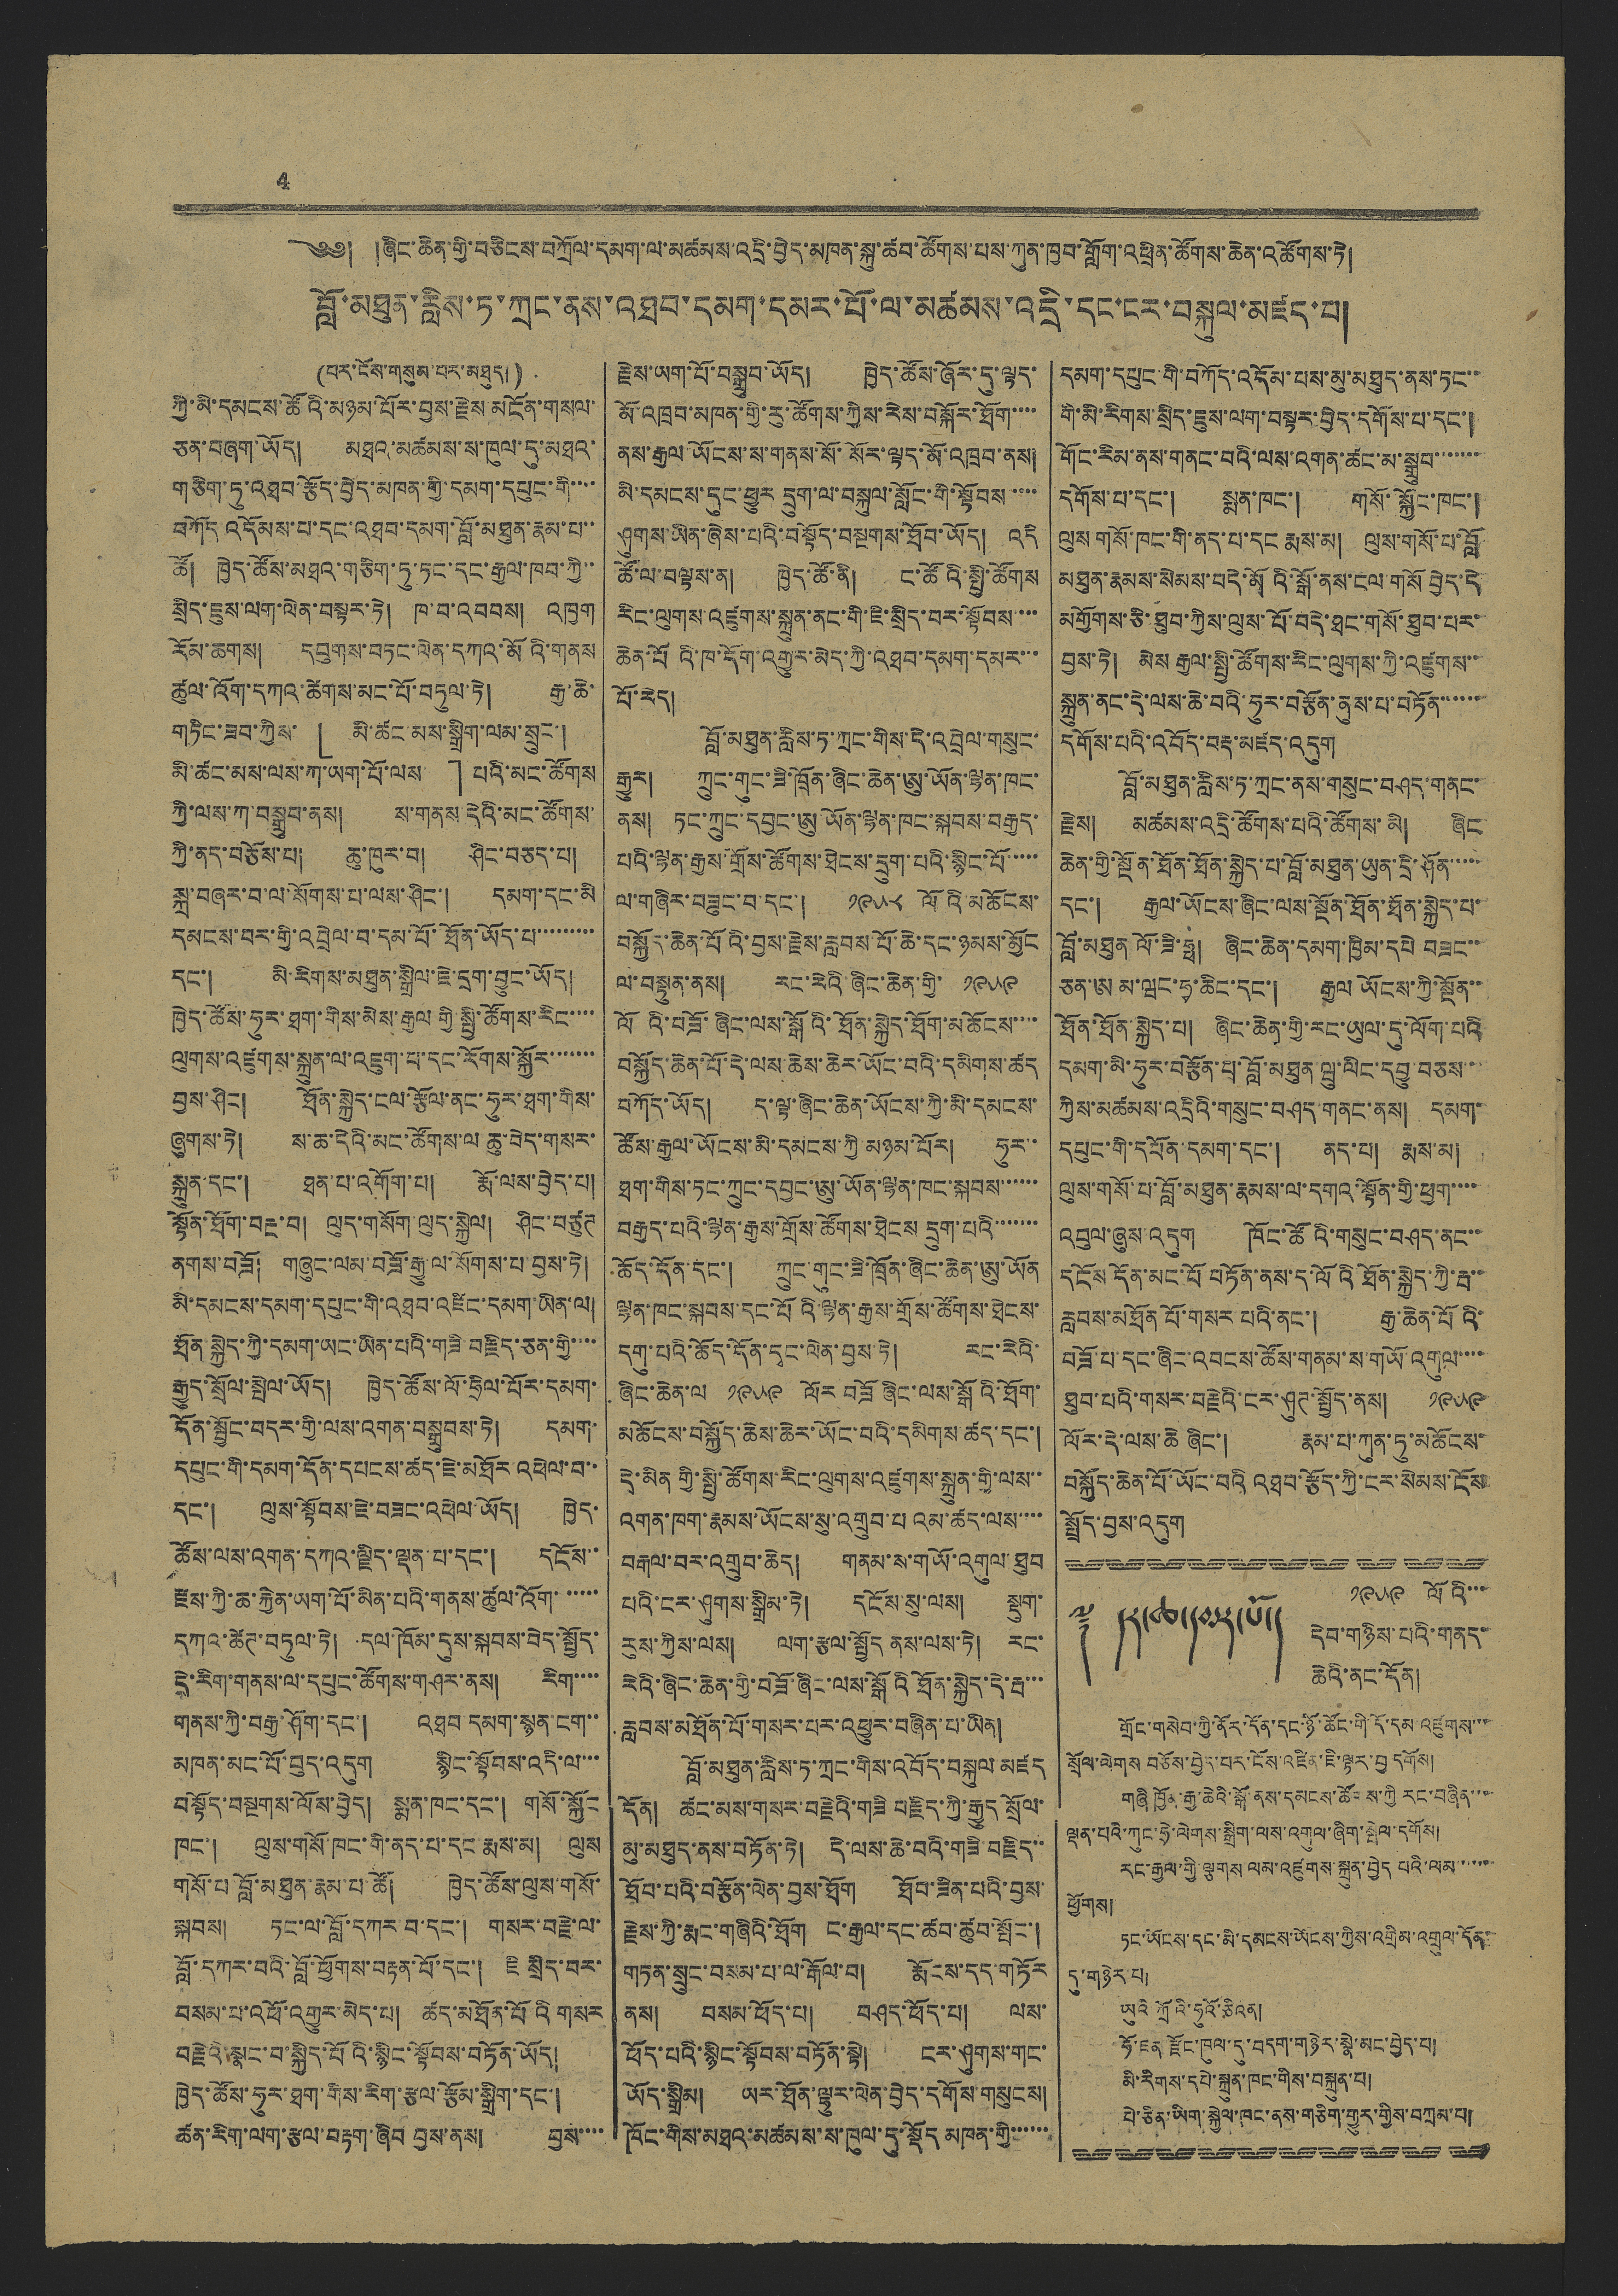4
༄༅། །ཞིང་ཆེན་གྱི་བཅིངས་བཀྲོལ་དམག་ལ་མཚམས་འདྲི་བྱེད་མཁན་སྐུ་ཚབ་ཚོགས་པས་ཀུན་ཁྱབ་གློག་འཕྲིན་ཚོགས་ཆེན་འཚོགས་ཏེ།
བློ་མཐུན་རླིས་ཏ་ཀྲང་ནས་འཐབ་དམག་དམར་པོ་ལ་མཚམས་འདྲི་དང་ངར་བསྐུལ་མཛད་པ།
(པར་ངོས་གསུམ་པར་མཐུད།)
ཀྱི་མི་དམངས་ཚོའི་མཉམ་པོར་བྱས་རྗེས མངོན་གསལ་
ཅན་བཞག་ཡོད། མཐའ་མཚམས་ས་ཁུལ་དུ་མཐའ་
གཅིག་ཏུ་འཐབ་རྩོད་བྱེད་མཁན་གྱི་དམག་དཔུང་གི་་་་
བཀོད འདོམས་པ་དང་འཐབ་དམག་བློ་མཐུན་རྣམ་པ་་
ཚོ། ཁྱེད་ཚོས་མཐའ་གཅིག་ཏུ་ཏང་དང་རྒྱལ་ཁབ་ཀྱི་་
སྲིད་ཇུས་ལག་ལེན་བསྟར་ཏེ། ཁ་བ་འབབས། འཁྱག
རོམ་ཆགས། དབུགས་བཏང་ལེན་དཀའ་མོའི་གནས
ཚུལ་འོག་དཀའ་ཚེགས་མང་པོ་བཏུལ་ཏེ། རྒྱ་ཆེ་
གཏིང་ཟབ་ཀྱིས་ 「 མི་ཚང་མས་སྒྲིག་ལམ་སྲུང་།
མི་ཚང་མས་ལས་ཀ་ཡག་པོ་ལས 」པའི་མང་ཚོགས
ཀྱི་ལས་ཀ་བསྒྲུབ་ནས། ས་གནས་དེའི་མང་ཚོགས་
ཀྱི་ནད་བཅོས་པ། ཆུ་ཁུར་བ། ཤིང་བཅད་པ།
སྐྲ་བཞར་བ་ལ་སོགས་པ་ལས་ཤིང་། དམག་དང་མི
དམངས་བར་གྱི་འབྲེལ་བ་དམ་པོ་ཐོན་ཡོད་པ་་་་་་་་་
དང་། མི་རིགས་མཐུན་སྒྲིལ་ཇེ་དྲག་བྱུང་ཡོད།
ཁྱེད་ཚོས་ཧུར་ཐག་གིས་མེས་རྒྱལ གྱི་སྤྱི་ཚོགས་རིང་་་་
ལུགས་འཛུགས་སྐྲུན་ལ་འཇུག་པ་དང་རོགས་སྐྱོར་་་་་་་
བྱས་ཤིང། ཐོན་སྐྱེད་ངལ་རྩོལ་ནང་ཧུར་ཐག་གིས་
ཞུགས་ཏེ། ས་ཆ་དེའི་མང་ཚོགས་ལ ཆུ་བེད་གསར་
སྐྲུན་དང་། ཐན་པ་འགོག་པ། རྨོ་ལས་བྱེད་པ།
སྟོན་ཐོག་བརྔ་བ། ལུད་གསོག་ལུད་སྐྱེལ། ཤིང་བཙུཊ
ནགས་བཟོ། གཞུང་ལམ་བཟོ་རྒྱུ་ལ་སོགས་པ་བྱས་ཏེ།
མི་དམངས་དམག་དཔུང་གི་འཐབ་འཛིང་དམག་ཡིན་ལ།
ཐོན་སྐྱོད་ཀྱི་དམག་ཡང་ཡིན་པའི་གཟི བརྗིད་ཅན་གྱི་་་་
རྒྱུད་སྲོལ་སྤེལ་ཡོད། ཁྱེད་ཚོས་ལོ་ཧྲིལ་པོར་དམག་
དོན་སྦྱོང་བདར་གྱི་ལས་འགན་བསྒྲུབས་ཏེ། དམག་
དཔུང་གི་དམག་དོན་དཔངས་ཚད་ཇེ་མཐོར འཕེལ་བ་་
དང་། ལུས་སྟོབས་ཇེ་བཟང་འཕེལ་ཡོད། ཁྱེད་
ཚོས་ལས་འགན་དཀའ་ལྗིད་ལྡན་པ་དང་། དངོས་་
རྫས་ཀྱི་ཆ་རྐྱེན་ཡག་པོ་མིན་པའི་གནས་ཚུལ་འོག་་་་་་
དཀའ་ཚེཊ་བཏུལ་ཏེ། དལ་ཁོམ་དུས་སྐབས་བེད་སྤྱོད་
དེ་རིག་གནས་ལ་དཔུང་ཚོགས་གཤར་ནས། རིག་་་་
གནས་ཀྱི་བརྒྱ་ཤོག་དང་། འཐབ དམག་སྙན་ངག་་
མཁན་མང་པོ་བུད་འདུག སྙིང་སྟོབས་འདི་ལ་་་
བསྟོད་བསྔགས་ལོས་བྱེད། སྨན་ཁང་དང་། གསོ་སྐྱོང
ཁང་། ལུས་གསོ་ཁང་གི་ནད་པ་དང རྨས་མ། ལུས
གསོ་པ་བློ་མཐུན་རྣམ་པ་ཚོ། ཁྱེད་ཚོས་ལུས་གསོ་
སྐབས། ཏང་ལ་བློ་དཀར་བ་དང་། གསར་བརྗེ་ལ་
བློ་དཀར་བའི་བློ་ཕྱོགས་བརྟན་པོ་དང་། ཇི སྲིད་བར་
བསམ་པ་འཕོ་འགྱུར་མེད་པ། ཚད་མཐོན་པོའི གསར
བརྗེའི་སྣང་བ་སྐྱིད་པོའི་སྙིང་སྟོབས་བཏོན་ཡོད།
ཁྱེད་ཚོས་ཧུར་ཐག་གིས་རིག་རྩལ་རྩོམ་སྒྲིག་དང་།
ཚན་རིག་ལག་རྩལ་བརྟག་ཞིབ བྱས་ནས། བྱས་་་་
རྗེས་ཡག་པོ་བསྒྲུབ་ཡོད། ཁྱེད་ཚོས་ཞོར་དུ་ལྟད་
མོ་འཁྲབ་མཁན་གྱི་རུ་ཚོགས་ཀྱིས་རེས་བསྐོར་ཐོག་་་་
ནས་རྒྱལ་ཡོངས་ས་གནས་སོ་སོར་ལྟད་མོ་འཁྲབ་ནས།
མི་དམངས་དུང་ཕྱུར དྲུག་ལ་བསྐུལ་སློང་གི་སྟོབས་་་་
ཤུགས་ཡིན་ཞེས་པའི་བསྟོད་བསྔགས་ཐོབ་ཡོད། འདི
ཚོ་ལ་བལྟས་ན། ཁྱེད་ཚོ་ནི། ང་ཚོའི་སྤྱི་ཚོགས
རིང་ལུགས་འཛུགས་སྐྲུན་ནང་གི་ཇི་སྲིད་བར་སྟོབས་་་་
ཆེན་པོའི་ཁ་དོག་འགྱུར་མེད་ཀྱི་འཐབ་དམག་དམར་་་
པོ་རེད།
བློ་མཐུན་རླིས་ཏ་ཀྲང་གིས་དེ་འབྲེལ་གསུང་
རྒྱུར། ཀྲུང་གུང་ཟི་ཁྲོན་ཞིང་ཆེན་ཨུ་ཡོན་ལྷན་ཁང་
ནས། ཏང་ཀྲུང་དབྱང་ཨུ་ཡོན་ལྷན་ཁང་སྐབས་བརྒྱད་
པའི་ལྷན་རྒྱས་གྲོས་ཚོགས་ཐེངས་དྲུག་པའི་སྙིང་པོ་་་་་
ལ་གཞིར་བཟུང་བ་དང་། ༡༩༥༨ ལོའི་མཆོངས་
བསྐྱོད་ཆེན་པོའི་བྱས་རྗེས་རླབས་པོ་ཆེ་དང་ཉམས་མྱོང
ལ་བསྟུན་ནས། རང་རེའི་ཞིང་ཆེན་གྱི་ ༡༩༥༩
ལོའི་བཟོ་ཞིང་ལས་སྒོའི་ཐོན་སྐྱེད་ཐོག་མཆོངས་་་་
བསྐྱོད་ཆེན་པོ་དེ་ལས་ཆེས་ཡོང་བའི་དམིགས་ཚད
བཀོད་ཡོད། ད་ལྟ་ཞིང་ཆེན་ཡོངས་ཀྱི་མི་དམངས་
ཚོས་རྒྱལ་ཡོངས་མི་དམངས་ཀྱི མཉམ་པོར། ཧུར་་
ཐག་གིས་ཏང་ཀྲུང་དབྱང་ཨུ་ཡོན་ལྷན་ཁང་སྐབས་་་་་་
བརྒྱད་པའི་ལྷན་རྒྱས་གྲོས་ཚོགས་ཐེངས དྲུག་པའི་་་་་་་
ཆོད་དོན་དང་། ཀྲུང་གུང་ཟི་ཁྲོན་ཞིང་ཆེན་ཨུ་ཡོན
ལྷན་ཁང་སྐབས་དང་པོའི་ལྷན་རྒྱས་གྲོས་ཚོགས་ཐེངས་
དགུ་པའི་ཆོད་དོན་དྭང་ལེན་བྱས་ཏེ། རང་རེའི་
ཞིང་ཆེན་ལ ༡༩༥༩ ལོར བཟོ ཞིང་ལས་སྒོའི་ཐོག་
མཆོངས་བསྐྱོད་ཆེས་ཆེར་ཡོང་བའི་དམིགས ཚད་དང་།
དྲེ་མིན གྱི་སྤྱི་ཚོགས་རིང་ལུགས་འཛུགས་སྐྲུན་གྱི་ལས་་
འགན་ཁག་རྣམས་ཡོངས་སུ་འགྲུབ་པའམ་ཚད་ལས་་་་
བརྒལ་བར་འགྲུབ་ཆེད། གནམ་ས་གཡོ་འགུལ་ཐུབ
པའི་ངར་ཤུགས་སྒྲིམ་ཏེ། དངོས་སུ་ལས། སྡུག་
རུས་ཀྱིས་ལས། ལག་རྩལ་སྤྱོད ནས་ལས་ཏེ། རང་
རེའི་ཞིང་ཆེན་གྱི་བཟོ་ཞིང་ལས་སྒོའི ཐོན་སྐྱེད་དེ་རྦ་་་
རླབས་མཐོན་པོ་གསར་པར་འཕྱུར་བཞིན་པ་ཡིན།
བློ་མཐུན་རླིས་ཏ་ཀྲང་གིས་འབོད་བསྐུལ་མཛད
དོན། ཚང་མས་གསར་བརྗེའི་གཟི བརྗིད་ཀྱི་རྒྱུད སྲོལ་
མུ་མཐུད་ནས་བཏོན་ཏེ། དེ་ལས་ཆེ་བའི་གཟི་བརྗིད་་
ཐོབ་པའི་བརྩོན་ལེན་བྱས་ཐོག ཐོབ་ཟིན་པའི་བྱས་
རྗེས་ཀྱི་རྨང་གཞིའི་ཐོག ང་རྒྱལ་དང་ཚབ་ཚུབ་སྤོང་།
གཏན་སྲུང་བསམ་པ་ལ་རྒོལ་བ། རྨོངས་དད་གཏོར
ནས། བསམ་ཕོད་པ། བཤད་ཕོད་པ། ལས་
ཕོད་པའི་སྙིང་སྟོབས་བཏོན་སྟེ། ངར་ཤུགས་གང་
ཡོད་སྒྲིམ། ཡར་ཐོན་ལྷུར་ལེན་བྱེད་དགོས་གསུངས།
ཁོང་གིས་མཐའ་མཚམས་ས་ཁུལ་དུ་སྡོད མཁན་གྱི་་་་་་
དམག་དཔུང་གི་བཀོད་འདོམ་པས་མུ་མཐུད་ནས་ཏང་་
གི་མི་རིགས་སྲིད་ཇུས་ལག་བསྟར་བྱེད་དགོས་པ་དང་།
གོང་རིམ་ནས་གནང་བའི་ལས་འགན་ཚང་མ་སྒྲུབ་་་་་་་
དགོས་པ་དང་། སྨན་ཁང་། གསོ་སྐྱོང་ཁང་།
ལུས གསོ་ཁང་གི་ནད་པ་དང རྨས་མ། ལུས་གསོ་པ་བློ
མཐུན་རྣམས་སེམས་བདེ་མོའི་སྒོ་ནས་ངལ་གསོ བྱེད་དེ
མགྱོགས་ཅི་ཐུབ་ཀྱིས་ལུས་པོ་བདེ་ཐང་གསོ་ཐུབ་པར་
བྱས་ཏེ། མེས རྒྱལ་སྤྱི་ཚོགས་རིང་ལུགས་ཀྱི་འཛུགས་་
སྐྲུན་ནང་དེ་ལས་ཆེ་བའི་ཧུར་བརྩོན་ནུས་པ་བཏོན་་་་་་
དགོས་པའི་འབོད་བརྡ་མཛད་འདུག
བློ་མཐུན་རླིས་ཏ་ཀྲང་ནས་གསུང་བཤད་གནང་
རྗེས། མཚམས་འདྲི་ཚོགས་པའི་ཚོགས་མི། ཞིང
ཆེན་གྱི་སྔོན་ཐོན་ཐོན་སྐྱེད་པ་བློ་མཐུན་ཡུན་དྲི་ཤོན་་་་་
དང་། རྒྱལ་ཡོངས་ཞིང་ལས་སྔོན་ཐོན་ཐོན་སྐྱེད་པ་
བློ་མཐུན ལོ་ཟི་ཧྥ། ཞིང་ཆེན་དམག་ཁྱིམ་དཔེ བཟང་་
ཅན་ཨ མ་ཝང་ཧྭ་ཆིང་དང་། རྒྱལ ཡོངས་ཀྱི་སྔོན་་
ཐོན་ཐོན་སྐྱེད་པ། ཞིང་ཆེན་གྱི་རང་ཡུལ་དུ་ལོག་པའི
དམག་མི་ཧུར་བརྩོན་པ་བློ་མཐུན ཝུ་ལིང་དབྱུ་བཅས་་་
ཀྱིས་མཚམས་འདྲིའི་གསུང་བཤད གནང་ནས། དམག་
དཔུང་གི་དཔོན་དམག་དང་། ནད་པ། རྨས་མ།
ལུས་གསོ་པ་བློ་མཐུན་རྣམས་ལ་དགའ་སྟོན་གྱི་ཕྱག་་་་
འབུལ་ཞུས་འདུག ཁོང་ཚོའི་གསུང་བཤད་ནང་
དངོས དོན་མང་པོ བཏོན་ནས་ད་ལོའི ཐོན་སྐྱེད་ཀྱི་རྦ་་
རླབས་མཐོན པོ་གསར པའི་ནང་། རྒྱ་ཆེན་པོའི་
བཟོ་པ་དང་ཞིང་འབངས་ཚོས་གནམ་ས་གཡོ་འགུལ་་་་
ཐུབ་པའི་གསར་བརྗེའི་ངར་ཤུཊ་སྤྱོད་ནས། ༡༩༥༩
ལོར་དེ་ལས་ཆེ ཞིང་། རྣམ་པ་ཀུན་ཏུ་མཆོངས་
བསྐྱོད་ཆེན་པོ་ཡོང་བའི འཐབ་རྩོད་ཀྱི་ངར་སེམས་ངོས
སྤྲོད་བྱས་འདུག
༈ དར་ཆ་དམར་པོ།
༡༩༥༩ ལོའི་་་
དེབ་གཉིས་པའི་གནད་་
ཆེའི་ནང་དོན།
གྲོང་གསེབ་ཀྱི་ནོར་དོན་དང་ཉོ་ཚོང་གི་དོ་དམ འཛུགས་་་
སྲོལ་ལེགས བཅོས་བྱེད་པར་ངོས་འཛིན་ཇི་ལྟར་བྱ དགོས།
གཞི ཁྱོན་རྒྱ་ཆེའི་སྒོ་ནས་དམངས་ཚོགས་ཀྱི རང་བཞིན་་་
ལྡན་པའི་ཀུང་ཧྲེ་ལེགས་སྒྲིག་ལས་འགུལ་ཞིག་སྤེལ་དགོས།
རང་རྒྱལ་གྱི་ལྕགས ལམ་འཛུགས་སྐྲུན་བྱེད པའི་ལམ་་་་་་
ཕྱོགས།
ཏང་ཡོངས་དང་མི་དམངས་ཡོངས་ཀྱིས་འགྲིམ་འགྲུལ་དོན་
དུ་གཉེར་པ།
ཡུའི་ཀྲོའི་ཧུའོ་ཅིའན།
ཧོ་ཇན རྫོང་ཁུལ་དུ་བདག་གཉེར་སྣེ་མང་བྱེད་པ།
མི་རིགས་དཔེ་སྐྲུན་ཁང་གིས་བསྐྲུན་པ།
པེ་ཅིན་ཡིག་སྐྱེལ་ཁང་ནས་གཅིག་གྱུར་གྱིས་བཀྲམ་པ།
